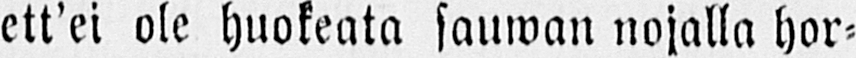ett'ei ole huokeata sauwan nojalla hor-
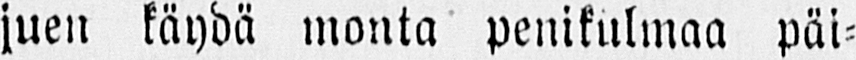juen käydä monta penikulmaa päi-
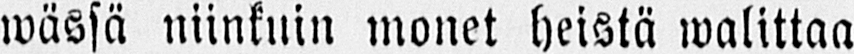wässä niinkuin monet heistä walittaa
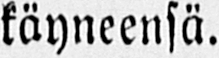käyneensä.
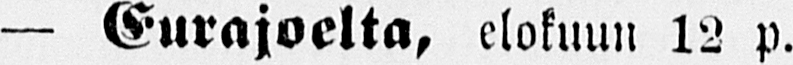— Eurajoelta, elokuun 12 p.
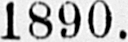1890.
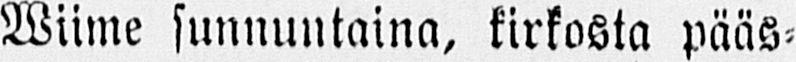Wiime sunnuntaina, kirkosta pääs-
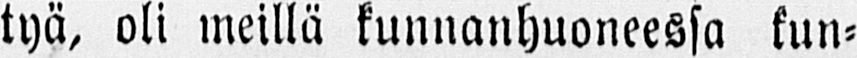tyä, oli meillä kunnanhuoneessa kun-
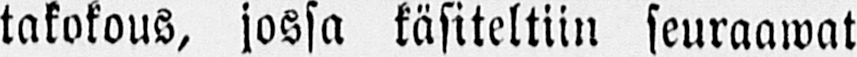takokous, jossa käsiteltiin seuraawat
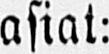asiat:
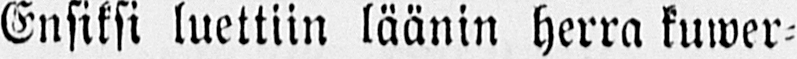Ensiksi luettiin läänin herra kuwer-
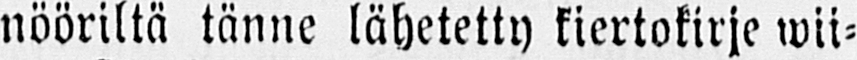nööriltä tänne lähetetty kiertokirje wii-
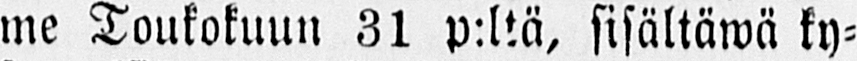me Toukokuun 31 p:ltä, sisältäwä ky-
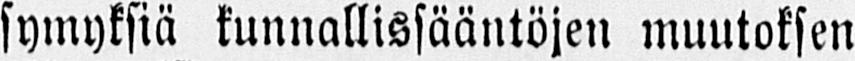symyksiä kunnallissääntöjen muutoksen
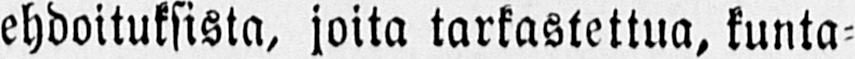ehdoituksista, joita tarkastettua, kunta-
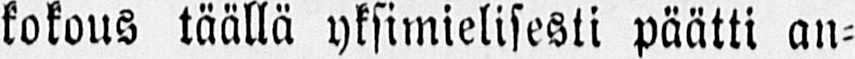kokous täällä yksimielisesti päätti an-
